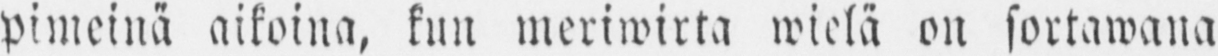pimeinä aikoina, kun meriwirta wielä on sortawana
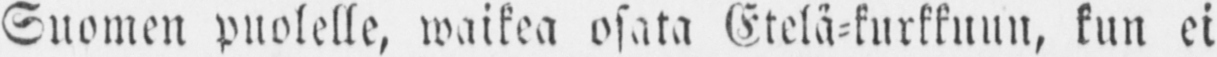Suomen puolelle, waikea osata Etelä-kurkkuun, kun ei
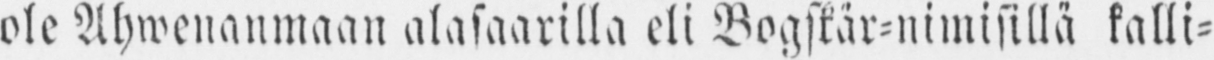ole Ahwenanmaan alasaarilla eli Bogskär-nimisillä kalli-
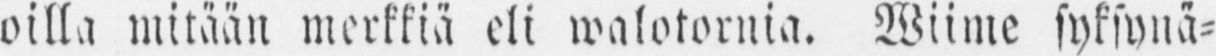oilla mitään merkkiä eli walotornia. Wiime syksynä-
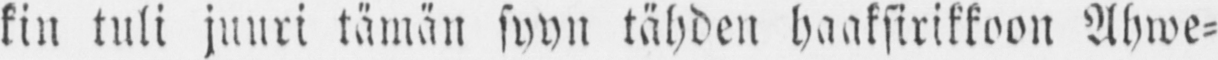kin tuli juuri tämän syyn tähden haaksirikkoon Ahwe-
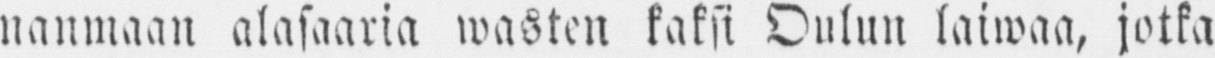nanmaan alasaaria wasten kaksi Oulun laiwaa, jotka
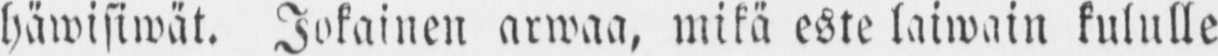häwisiwät. Jokainen arwaa, mikä este laiwain kululle
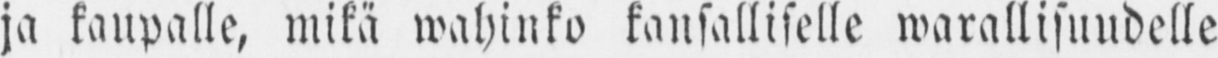ja kaupalle, mikä wahinko kansalliselle warallisuudelle
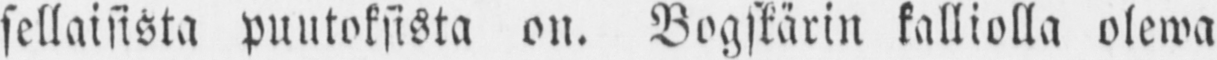sellaisista puutoksista on. Bogskärin kalliolla olewa
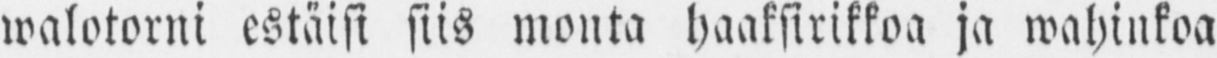walotorni estäisi siis monta haaksirikkoa ja wahinkoa
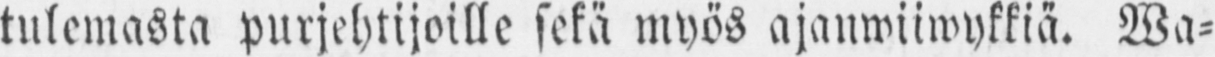tulemasta purjehtijoille sekä myös ajanwiiwykkiä. Wa-
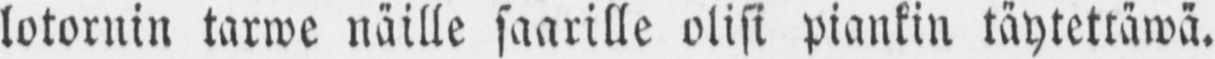lotornin tarwe näille saarille olisi piankin täytettäwä.
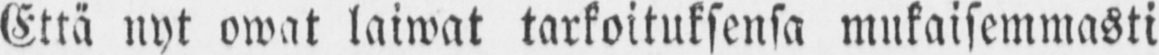Että nyt owat laiwat tarkoituksensa mukaisemmasti
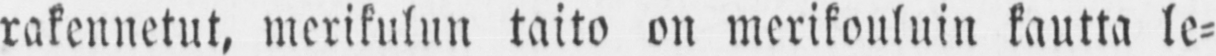rakennetut, merikulun taito on merikouluin kautta le-
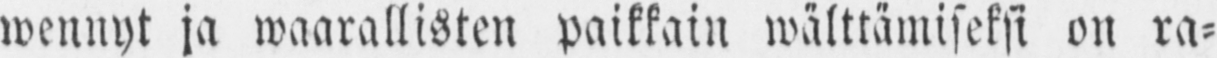wennyt ja waarallisten paikkain wälttämiseksi on ra-
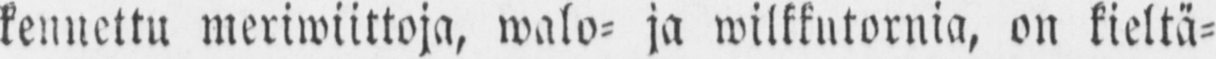kennettu meriwiittoja, walo- ja wilkkutornia, on kieltä-
